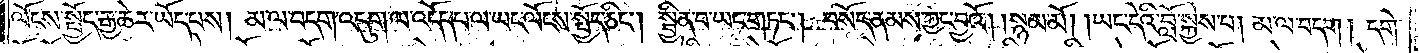ལོངས་སྤྱོད་རྒྱ་ཆེར་ཡོད་པས། མ་ལ་བདག་འདུག་ལ་འདོད་པ་ལ་ཡང་ལོངས་སྤྱོད་ཅིང༌། སྦྱིན་པ་ཡང་གཏང༌། བསོད་ནམས་ཀྱང་བྱའོ། །སྙམ་མོ། །ཡང་དེའི་བློ་སྐྱེས་པ། མ་ལ་བདག། དགེ་
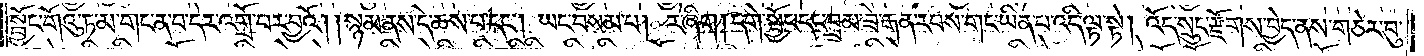སྦྱོང་གོའུ་ཏ་མ་གང་ན་བ་དེར་འགྲོ་བར་བྱའོ། །སྙམ་ནས་དེ་ཆས་པ་དང༌། ཡང་བསམ་པ། རེ་ཞིག། དགེ་སྦྱོང་དང་བྲམ་ཟེ་རྒན་རབས་གང་ཡིན་པ་འདི་ལྟ་སྟེ། འོད་སྲུང་རྫོགས་བྱེད་ནས་གཅེར་བུ་
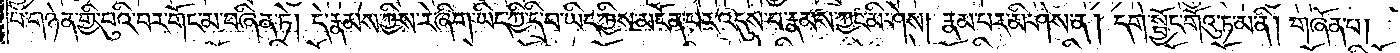པ་གཉེན་གྱི་བུའི་བར་གོང་མ་བཞིན་ཏེ། དེ་རྣམས་ཀྱིས་རེ་ཞིག་ཡིད་ཀྱི་དྲི་བ་ཡིད་ཀྱིས་མངོན་པར་འདུས་པ་རྣམས་ཀྱང་མི་ཤེས། རྣམ་པར་མི་ཤེས་ན། དགེ་སྦྱོང་གོའུ་ཏ་མ་ནི། གཞོན་པ།
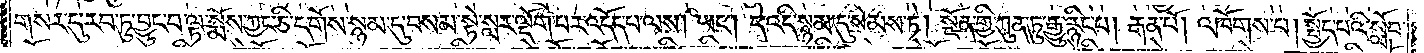གསར་དུ་རབ་ཏུ་བྱུང་བ་ལྟ་སྨོས་ཀྱང་ཅི་དགོས་སྙམ་དུ་བསམ་སྟེ་སླར་ལྡོག་པར་འདོད་པ་ལས། ཡང༌། དེ་འདི་སྙམ་དུ་སེམས་ཏེ། སྔོན་གྱི་ཀུན་ཏུ་རྒྱུ་རྙིང་པ། རྒན་པོ། འཁོགས་པ། སྤྱོད་པའི་སློབ་
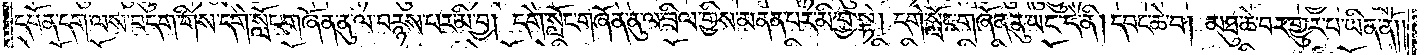དཔོན་དག་ལས་བདག་གིས་དགེ་སློང་གཞོན་ནུ་ལ་བརྙས་པར་མི་བྱ། དགེ་སློང་གཞོན་ནུ་ལ་ཟིལ་གྱིས་མནན་པར་མི་བྱ་སྟེ། དགེ་སློང་གཞོན་ནུ་ཡང་དེ་ནི། དབང་ཆེ་བ། མཐུ་ཆེ་བར་གྱུར་པ་ཡིན་ནོ། །
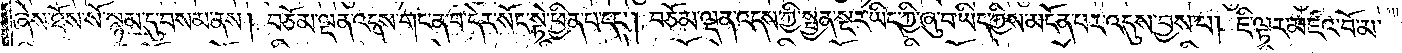ཞེས་ཐོས་སོ་སྙམ་དུ་བསམ་ནས། བཅོམ་ལྡན་འདས་གང་ན་བ་དེར་སོང་སྟེ་ཕྱིན་པ་དང༌། བཅོམ་ལྡན་འདས་ཀྱི་སྤྱན་སྔར་ཡིད་ཀྱི་ཞུ་བ་ཡིད་ཀྱིས་མངོན་པར་འདུས་བྱས་པ། ཇི་ལྟར་མཛའ་བོ་མ་
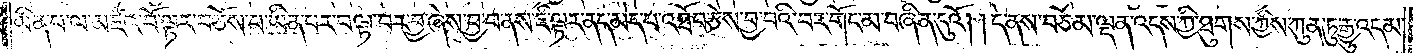ཡིན་པ་ལ་མཛའ་བོ་ལྟར་བཅོས་པ་ཡིན་པར་བལྟ་བར་བྱ་ཞེས་བྱ་བ་ནས་ཇི་ལྟར་ནད་མེད་པ་འཐོབ་ཅེས་བྱ་བའི་བར་གོང་མ་བཞིན་དུའོ། །དེ་ནས་བཅོམ་ལྡན་འདས་ཀྱི་ཐུགས་ཀྱིས་ཀུན་ཏུ་རྒྱུ་འདམ་
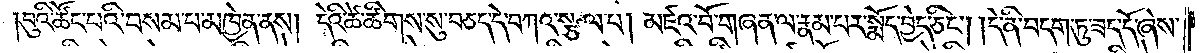བུའི་ཚོང་པའི་བསམ་པ་མཁྱེན་ནས། དེའི་ཚེ་ཚིགས་སུ་བཅད་དེ་བཀའ་སྩལ་པ། མཛའ་བོ་གཞན་ལ་རྣམ་པར་སྨོད་བྱེད་ཅིང༌། །དེ་ནི་བདག་ཏུ་ཟད་དོ་ཞེས་
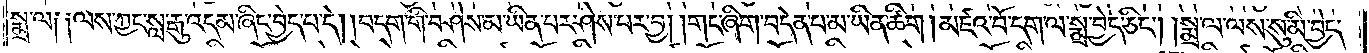སྨྲ་ལ༏ ༏ལས་ཀྱང་སླ་རྒུ་འདམ་ཞིང་བྱེད་པ་ད། །བདག་གི་བཤེས་མ་ཡིན་པར་ཤེས་པར་བྱ། །གང་ཞིག་བདེན་པ་མ་ཡིན་ཚིག །མཛའ་བོ་དག་ལ་སྨྲ་བྱེད་ཅིང༌། །སྨྲ་ལ་ལས་སུ་མི་བྱེད་
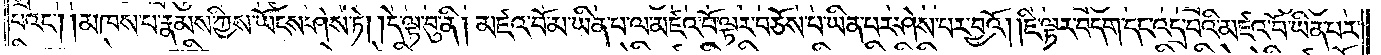པའང༌། །མཁས་པ་རྣམས་ཀྱིས་ཡོངས་ཤེས་ཏེ། །དེ་ལྟ་བུ་ནི། མཛའ་བོ་མ་ཡིན་པ་ལ་མཛའ་བོ་ལྟར་བཅོས་པ་ཡིན་པར་ཤེས་པར་བྱའོ། །ཇི་ལྟར་བདག་དང་འདྲ་བའི་མཛའ་བོ་ཡིན་པར་
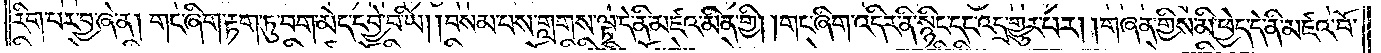རིག་པར་བྱ་ཞེ་ན། གང་ཞིག་རྟག་ཏུ་བདག་མེད་དབྱེ་བ་ཡི། །བསམ་པས་གླགས་ལྟ་དེ་ནི་མཛའ་མིན་གྱི། །གང་ཞིག་འདིར་ནི་སྙིང་དང་འདྲ་གྱུར་པར། །གཞན་གྱིས་མི་ཕྱེད་དེ་ནི་མཛའ་བོ་
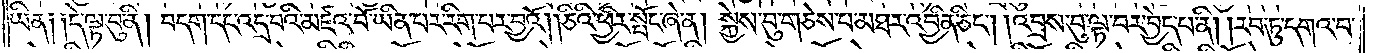ཡིན༑ ༑དེ་ལྟ་བུ་ནི། བདག་དང་འདྲ་བའི་མཛའ་བོ་ཡིན་པར་རིག་པར་བྱའོ། །ཅིའི་ཕྱིར་སྤོང་ཞེ་ན། སྐྱེས་བུ་གཅེས་པ་མཐར་འབྱིན་ཅིང༌། །འབྲས་བུ་ལྟ་བར་བྱེད་པ་ནི། །རབ་ཏུ་དགའ་བ་
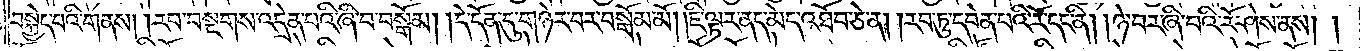བསྐྱེད་པའི་གནས། །རབ་བསྔགས་འདྲེན་པའི་ཞི་བ་བསྒོམ། །དེ་དོན་དུ་གཉེར་བར་བསྒོམ་མོ། །ཇི་ལྟར་ནད་མེད་འཐོབ་ཅེ་ན། །རབ་ཏུ་དབེན་པའི་རོ་དང་ནི། །ཉེ་བར་ཞི་བའི་རོ་ཤེས་ནས། །
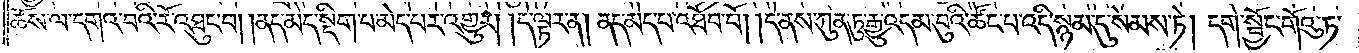ཆོས་ལ་དགའ་བའི་རོ་འཐུང་བ། །ནད་མེད་སྡིག་པ་མེད་པར་འགྱུར། །དེ་ལྟར་ན། ནད་མེད་པ་འཐོབ་བོ། །དེ་ནས་ཀུན་ཏུ་རྒྱུ་འདམ་བུའི་ཚོང་པ་འདི་སྙམ་དུ་སེམས་ཏེ། དགེ་སྦྱོང་གོའུ་ཏ་
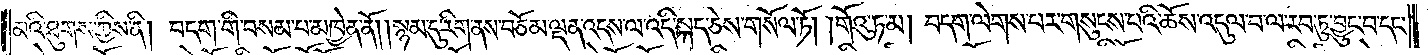མའི་ཐུགས་ཀྱིས་ནི། བདག་གི་བསམ་པ་མཁྱེན་ནོ། །སྙམ་དུ་རིག་ནས་བཅོམ་ལྡན་འདས་ལ་འདི་སྐད་ཅེས་གསོལ་ཏོ། །གོའུ་ཏ་མ། བདག་ལེགས་པར་གསུངས་པའི་ཆོས་འདུལ་བ་ལ་རབ་ཏུ་བྱུང་བ་དང་
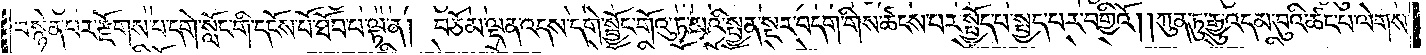བསྙེན་པར་རྫོགས་པ་དགེ་སློང་གི་དངོས་པོ་ཐོབ་པ་ལྟ་ན། བཅོམ་ལྡན་འདས་དགེ་སྦྱོང་གོའུ་ཏ་མའི་སྤྱན་སྔར་བདག་གིས་ཚངས་པར་སྤྱོད་པ་སྤྱད་པར་བགྱིའོ། །ཀུན་ཏུ་རྒྱུ་འདམ་བུའི་ཚང་པ་ལེགས་
